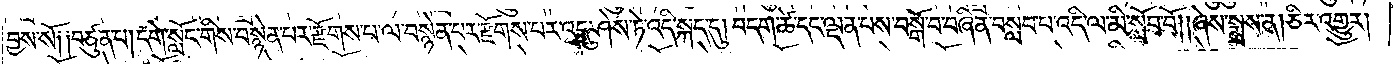བྱས་སོ༑ ༑བཙུན་པ། དགེ་སློང་གིས་བསྙེན་པར་རྫོགས་པ་ལ་བསྙེན་པར་རྫོགས་པར་འདུ་ཤེས་ཏེ་འདི་སྐད་དུ། བདག་ཚེ་དང་ལྡན་པས་བསྒོ་བ་བཞིན་བསླབ་པ་འདི་ལ་མི་སློབ་བོ། །ཞེས་སྨྲས་ན། ཅིར་འགྱུར།
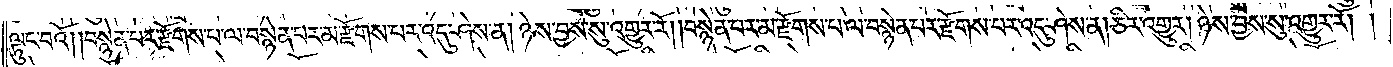ལྟུང་བའོ། །བསྙེན་པར་རྫོགས་པ་ལ་བསྙེན་པར་རྫོགས་པར་འདུ་ཤེས་ན། ཉེས་བྱས་སུ་འགྱུར་རོ། །བསྙེན་པར་མ་རྫོགས་པ་ལ་བསྙེན་པར་རྫོགས་པར་འདུ་ཤེས་ན། ཅིར་འགྱུར། ཉེས་བྱས་སུ་འགྱུར་རོ། །
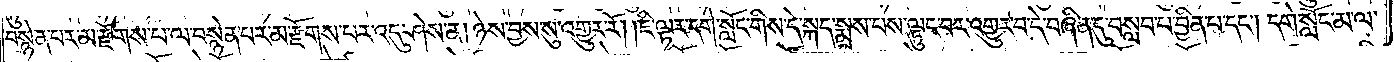བསྙེན་པར་མ་རྫོགས་པ་ལ་བསྙེན་པར་མ་རྫོགས་པར་འདུ་ཤེས་ན། ཉེས་བྱས་སུ་འགྱུར་རོ། །ཇི་ལྟར་དགེ་སློང་གིས་དེ་སྐད་སྨྲས་པས་ལྟུང་བར་འགྱུར་བ་དེ་བཞིན་དུ་བསླབ་པ་བྱིན་པ་དང༌། དགེ་སློང་མ་ལ་
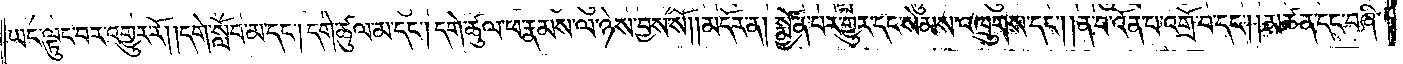ཡང་ལྟུང་བར་འགྱུར་རོ། །དགེ་སློབ་མ་དང༌། དགེ་ཚུལ་མ་དང༌། དགེ་ཚུལ་ཕ་རྣམས་ལ་ཉེས་བྱས་སོ།    །མདོར་ན། སྨྱོན་པར་གྱུར་དང་སེམས་འཁྲུགས་དང༌། །ན་བ་འོན་པ་འགྲོ་བ་དང༌། །མཚན་དང་བཞི་
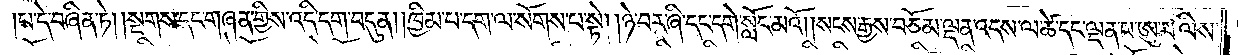།པ་དེ་བཞིན་ཏེ། སྔགས་དང་གཞན་གྱིས་འདི་དག་བདུན། །ཁྱིམ་པ་དག་ལ་སོགས་པ་སྟེ། །ཉེ་བར་ཞི་དང་དགེ་སློང་མའོ། །སངས་རྒྱས་བཅོམ་ལྡན་འདས་ལ་ཚེ་དང་ལྡན་པ་ཨུ་པ་ལིས་
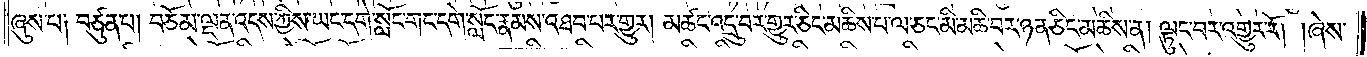ཞུས་པ། བཙུན་པ། བཅོམ་ལྡན་འདས་ཀྱིས་ཡང་དགེ་སློང་གང་དགེ་སློང་རྣམས་འཐབ་པར་གྱུར། མཚང་འདྲུ་བར་གྱུར་ཅིང་མཆིས་པ་ལ་ཅང་མི་མཆི་བར་ཉན་ཅིང་མཆིས་ན། ལྟུང་བར་འགྱུར་རོ། །ཞེས་
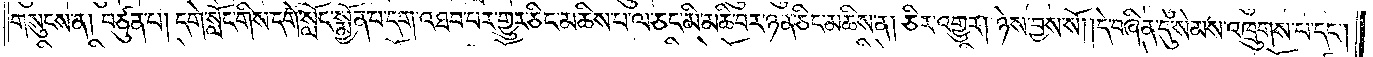གསུངས་ན། བཙུན་པ། དགེ་སློང་གིས་དགེ་སློང་སྨྱོན་པ་དག་འཐབ་པར་གྱུར་ཅིང་མཆིས་པ་ལ་ཅང་མི་མཆི་བར་ཉན་ཅིང་མཆིས་ན། ཅིར་འགྱུར། ཉེས་བྱས་སོ། །དེ་བཞིན་དུ་སེམས་འཁྲུགས་པ་དང༌།
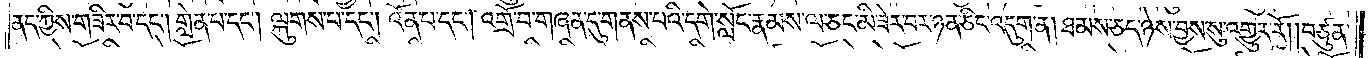ནད་ཀྱིས་གཟིར་བ་དང༌། གླེན་པ་དང༌། ལྐུགས་པ་དང༌། འོན་པ་དང༌། འགྲོ་བ་གཞན་དུ་གནས་པའི་དགེ་སློང་རྣམས་ལ་ཅང་མི་ཟེར་བར་ཉན་ཅིང་འདུག་ན། ཐམས་ཅད་ཉེས་བྱས་སུ་འགྱུར་རོ། །བཙུན་
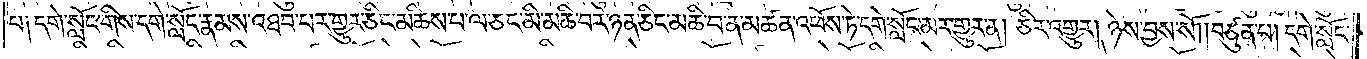པ། དགེ་སློང་གིས་དགེ་སློང་རྣམས་འཐབ་པར་གྱུར་ཅིང་མཆིས་པ་ལ་ཅང་མི་མཆི་བར་ཉན་ཅིང་མཆི་བ་ན་མཚན་འཕོས་ཏེ་དགེ་སློང་མར་གྱུར་ན། ཅིར་འགྱུར། ཉེས་བྱས་སོ། །བཙུན་པ། དགེ་སློང་
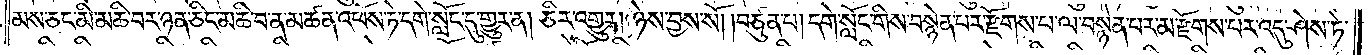མས་ཅང་མི་མཆི་བར་ཉན་ཅིང་མཆི་བ་ན་མཚན་འཕོས་ཏེ་དགེ་སློང་དུ་གྱུར་ན། ཅིར་འགྱུར། ཉེས་བྱས་སོ། །བཙུན་པ། དགེ་སློང་གིས་བསྙེན་པར་རྫོགས་པ་ལ་བསྙེན་པར་མ་རྫོགས་པར་འདུ་ཤེས་ཏེ་
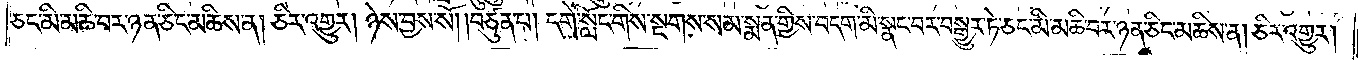ཅང་མི་མཆི་བར་ཉན་ཅིང་མཆིས་ན། ཅིར་འགྱུར། ཉེས་བྱས་སོ། །བཙུན་པ། དགེ་སློང་གིས་སྔགས་སམ་སྨན་གྱིས་བདག་མི་སྣང་བར་བསྒྱུར་ཏེ་ཅང་མི་མཆི་བར་ཉན་ཅིང་མཆིས་ན། ཅིར་འགྱུར།
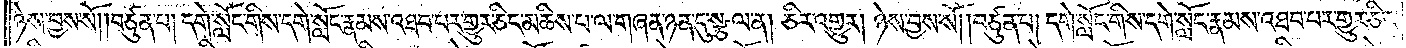ཉེས་བྱས་སོ། །བཙུན་པ། དགེ་སློང་གིས་དགེ་སློང་རྣམས་འཐབ་པར་གྱུར་ཅིང་མཆིས་པ་ལ་གཞན་དུ་སྩལ་ན། ཅིར་འགྱུར། ཉེས་བྱས་སོ། །བཙུན་པ། དགེ་སློང་གིས་དགེ་སློང་རྣམས་འཐབ་པར་གྱུར་ཅིང་
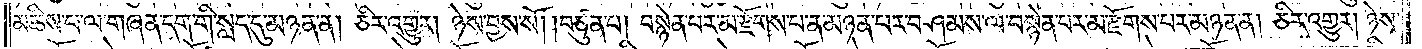མཆིས་པ་ལ་གཞན་དག་གི་སླད་དུ་མཉན་ན། ཅིར་འགྱུར། ཉེས་བྱས་སོས། །བཙུན་པ། བསྙེན་པར་མ་རྫོགས་པ་ན་མཉན་པར་བཤམས་ལ་བསྙེན་པར་མ་རྫོགས་པར་མཉན་ན། ཅིར་འགྱུར། ཉེས་
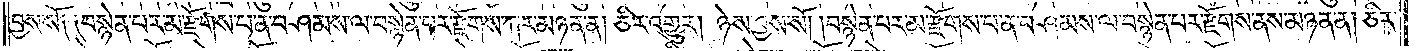བྱས་སོ། །བསྙེན་པར་མ་རྫོགས་པ་ན་བཤམས་ལ་བསྙེན་པར་རྫོགས་ཀར་མཉན་ན། ཅིར་འགྱུར། ཉེས་བྱས་སོ། །བསྙེན་པར་མ་རྫོགས་པ་ན་བཤམས་ལ་བསྙེན་པར་རྫོགས་ནས་མཉན་ན། ཅིར་
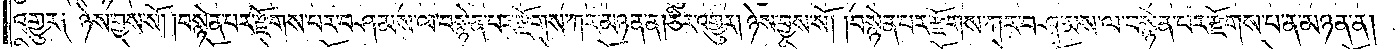འགྱུར། ཉེས་བྱས་སོ། །བསྙེན་པར་རྫོགས་པར་བཤམས་ལ་བསྙེན་པར་རྫོགས་ཀར་མཉན་ན། ཅིར་འགྱུར། ཉེས་བྱས་སོ། །བསྙེན་པར་རྫོགས་ཀར་བཤམས་ལ་བསྙེན་པར་རྫོགས་པ་ན་མཉན་ན།
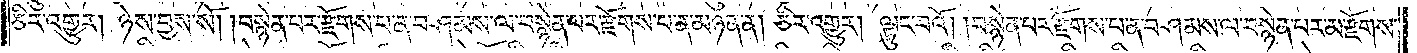ཅིར་འགྱུར། ཉེས་བྱས་སོ། །བསྙེན་པར་རྫོགས་པ་ན་བཤམས་ལ་བསྙེན་པར་རྫོགས་པ་ན་མཉན་ན། ཅིར་འགྱུར། ལྟུང་བའོ། །བསྙེན་པར་རྫོགས་པ་ན་བཤམས་ལ་བསྙེན་པར་མ་རྫོགས་
